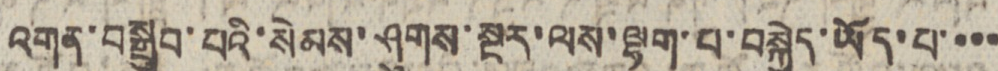འགན་བསྒྲུབ་པའི་་སེམས་ཤུགས་སྔར་ལས་ལྷག་པ་བསྐྱེད་ཡོད་པ་་་་
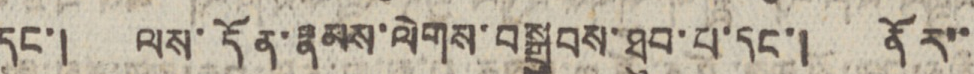དང་། ལས་དོན་རྣམས་ལེགས་བསྒྲུབས་ཐུབ་པ་དང་། ནོར་་
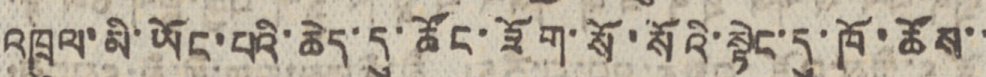འཁྲུལ་མི་ཡོང་བའི་ཆེད་དུ་ཚོང་ཟོག་སོ་སོའི་སྟེང་དུ་ཁོ་ཚོས་་
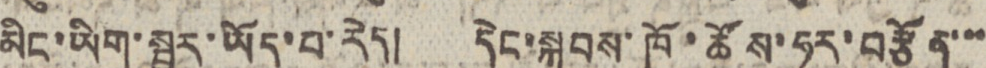མིང་ཡིག་སྦྱར་ཡོད་པ་རེད། དེང་སྐབས་ཁོ་ཚོས་ཧུར་བརྩོན་་་
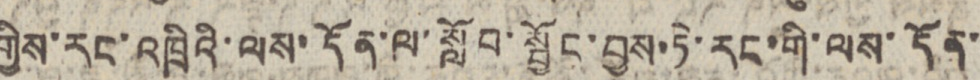གྱིས་རང་འཁྲིའི་ལས་དོན་ལ་སློབ་སྦྱོང་བྱས་ཏེ་རང་གི་ལས་དོན་
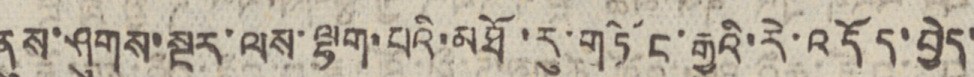ནུས་ཤུགས་སྔར་ལས་ལྷག་པའི་མཐོ་རུ་གཏོང་རྒྱུའི་འདོད་བྱེད་
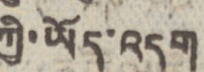ཀྱི་ཡོད་འདུག
